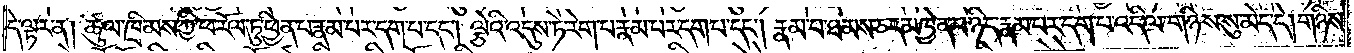དེ་ལྟར་ན། ཚུལ་ཁྲིམས་ཀྱི་ཕ་རོལ་ཏུ་ཕྱིན་པ་རྣམ་པར་དག་པ་དང༌། ལྕེའི་འདུས་ཏེ་རེག་པ་རྣམ་པར་དག་པ་དང༌། རྣམ་པ་ཐམས་ཅད་མཁྱེན་པ་ཉིད་རྣམ་པར་དག་པ་འདི་ལ་གཉིས་སུ་མེད་དེ། གཉིས་
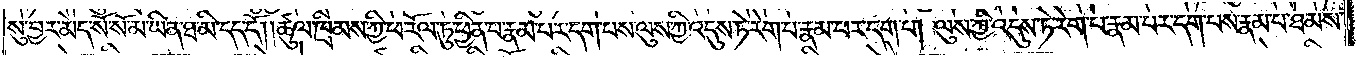སུ་བྱར་མེད་སོ་སོ་མ་ཡིན་ཐ་མི་དད་དོ། །ཚུལ་ཁྲིམས་ཀྱི་ཕ་རོལ་ཏུ་ཕྱིན་པ་རྣམ་པར་དག་པས་ལུས་ཀྱི་འདུས་ཏེ་རེག་པ་རྣམ་པར་དག་པ། ལུས་ཀྱི་འདུས་ཏེ་རེག་པ་རྣམ་པར་དག་པས་རྣམ་པ་ཐམས་
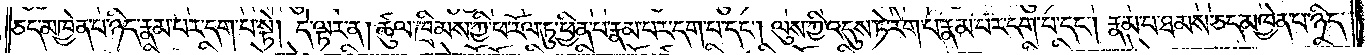ཅད་མཁྱེན་པ་ཉིད་རྣམ་པར་དག་པ་སྟེ། དེ་ལྟར་ན། ཚུལ་ཁྲིམས་ཀྱི་ཕ་རོལ་ཏུ་ཕྱིན་པ་རྣམ་པར་དག་པ་དང༌། ལུས་ཀྱི་འདུས་ཏེ་རེག་པ་རྣམ་པར་དག་པ་དང༌། རྣམ་པ་ཐམས་ཅད་མཁྱེན་པ་ཉིད་
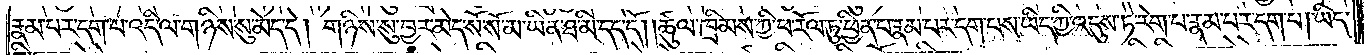རྣམ་པར་དག་པ་འདི་ལ་གཉིས་སུ་མེད་དེ། གཉིས་སུ་བྱར་མེད་སོ་སོ་མ་ཡིན་ཐ་མི་དད་དོ། །ཚུལ་ཁྲིམས་ཀྱི་ཕ་རོལ་ཏུ་ཕྱིན་པ་རྣམ་པར་དག་པས་ཡིད་ཀྱི་འདུས་ཏེ་རེག་པ་རྣམ་པར་དག་པ། ཡིད་
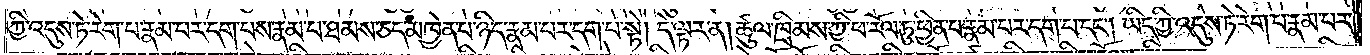ཀྱི་འདུས་ཏེ་རེག་པ་རྣམ་པར་དག་པས་རྣམ་པ་ཐམས་ཅད་མཁྱེན་པ་ཉིད་རྣམ་པར་དག་པ་སྟེ། དེ་ལྟར་ན། ཚུལ་ཁྲིམས་ཀྱི་ཕ་རོལ་ཏུ་ཕྱིན་པ་རྣམ་པར་དག་པ་དང༌། ཡིད་ཀྱི་འདུས་ཏེ་རེག་པ་རྣམ་པར་
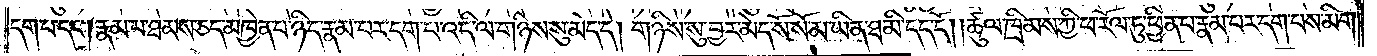དག་པ་དང༌། རྣམ་པ་ཐམས་ཅད་མཁྱེན་པ་ཉིད་རྣམ་པར་དག་པ་འདི་ལ་གཉིས་སུ་མེད་དེ། གཉིས་སུ་བྱར་མེད་སོ་སོ་མ་ཡིན་ཐ་མི་དད་དོ། །ཚུལ་ཁྲིམས་ཀྱི་ཕ་རོལ་ཏུ་ཕྱིན་པ་རྣམ་པར་དག་པས་མིག་
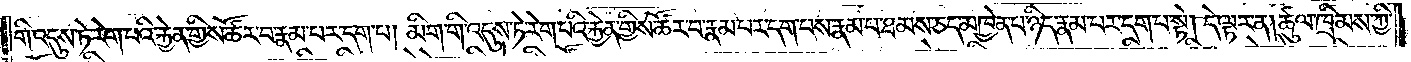གི་འདུས་ཏེ་རེག་པའི་རྐྱེན་གྱིས་ཚོར་བ་རྣམ་པར་དག་པ། མིག་གི་འདུས་ཏེ་རེག་པའི་རྐྱེན་གྱིས་ཚོར་བ་རྣམ་པར་དག་པས་རྣམ་པ་ཐམས་ཅད་མཁྱེན་པ་ཉིད་རྣམ་པར་དག་པ་སྟེ། དེ་ལྟར་ན། ཚུལ་ཁྲིམས་ཀྱི་
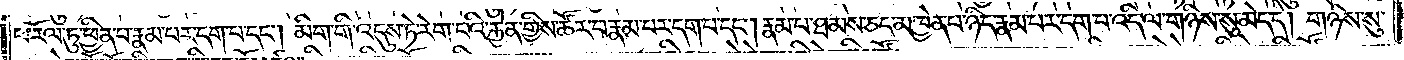ཕ་རོལ་ཏུ་ཕྱིན་པ་རྣམ་པར་དག་པ་དང༌། མིག་གི་འདུས་ཏེ་རེག་པའི་རྐྱེན་གྱིས་ཚོར་བ་རྣམ་པར་དག་པ་དང༌། རྣམ་པ་ཐམས་ཅད་མཁྱེན་པ་ཉིད་རྣམ་པར་དག་པ་འདི་ལ་གཉིས་སུ་མེད་དེ། གཉིས་སུ་
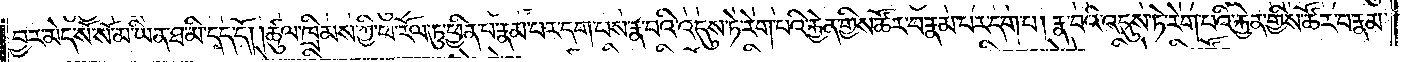བྱར་མེད་སོ་སོ་མ་ཡིན་ཐ་མི་དད་དོ། །ཚུལ་ཁྲིམས་ཀྱི་ཕ་རོལ་ཏུ་ཕྱིན་པ་རྣམ་པར་དག་པས་རྣ་བའི་འདུས་ཏེ་རེག་པའི་རྐྱེན་གྱིས་ཚོར་བ་རྣམ་པར་དག་པ། རྣ་བའི་འདུས་ཏེ་རེག་པའི་རྐྱེན་གྱིས་ཚོར་བ་རྣམ་
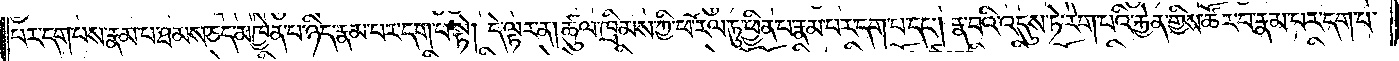པར་དག་པས་རྣམ་པ་ཐམས་ཅད་མཁྱེན་པ་ཉིད་རྣམ་པར་དག་པ་སྟེ། དེ་ལྟར་ན། ཚུལ་ཁྲིམས་ཀྱི་ཕ་རོལ་ཏུ་ཕྱིན་པ་རྣམ་པར་དག་པ་དང༌། རྣ་བའི་འདུས་ཏེ་རེག་པའི་རྐྱེན་གྱིས་ཚོར་བ་རྣམ་པར་དག་པ་
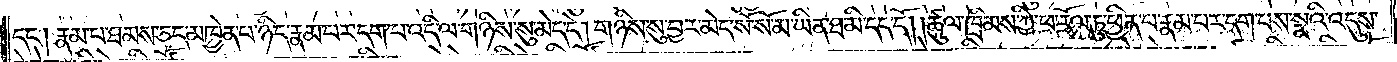དང༌། རྣམ་པ་ཐམས་ཅད་མཁྱེན་པ་ཉིད་རྣམ་པར་དག་པ་འདི་ལ་གཉིས་སུ་མེད་དེ། གཉིས་སུ་བྱར་མེད་སོ་སོ་མ་ཡིན་ཐ་མི་དད་དོ། །ཚུལ་ཁྲིམས་ཀྱི་ཕ་རོལ་ཏུ་ཕྱིན་པ་རྣམ་པར་དག་པས་སྣའི་འདུས་
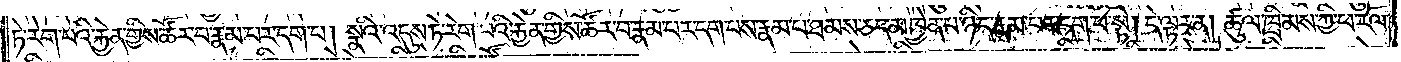ཏེ་རེག་པའི་རྐྱེན་གྱིས་ཚོར་བ་རྣམ་པར་དག་པ། སྣའི་འདུས་ཏེ་རེག་པའི་རྐྱེན་གྱིས་ཚོར་བ་རྣམ་པར་དག་པས་རྣམ་པ་ཐམས་ཅད་མཁྱེན་པ་ཉིད་རྣམ་པར་དག་པ་སྟེ། དེ་ལྟར་ན། ཚུལ་ཁྲིམས་ཀྱི་ཕ་རོལ་
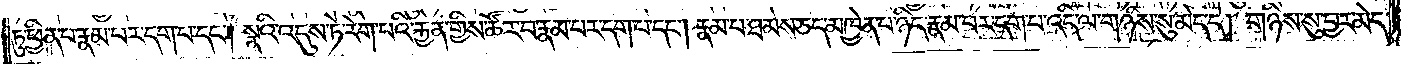ཏུ་ཕྱིན་པ་རྣམ་པར་དག་པ་དང༌། སྣའི་འདུས་ཏེ་རེག་པའི་རྐྱེན་གྱིས་ཚོར་བ་རྣམ་པར་དག་པ་དང༌། རྣམ་པ་ཐམས་ཅད་མཁྱེན་པ་ཉིད་རྣམ་པར་དག་པ་འདི་ལ་གཉིས་སུ་མེད་དེ། གཉིས་སུ་བྱར་མེད་
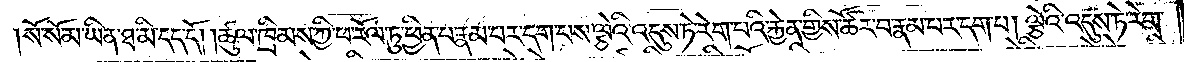སོ་སོ་མ་ཡིན་ཐ་མི་དད་དོ། །ཚུལ་ཁྲིམས་ཀྱི་ཕ་རོལ་ཏུ་ཕྱིན་པ་རྣམ་པར་དག་པས་ལྕེའི་འདུས་ཏེ་རེག་པའི་རྐྱེན་གྱིས་ཚོར་བ་རྣམ་པར་དག་པ། ལྕེའི་འདུས་ཏེ་རེག་
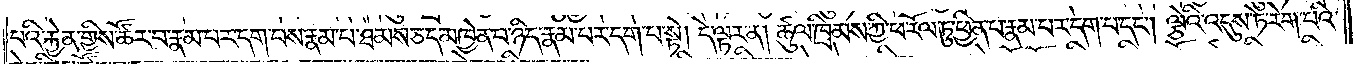པའི་རྐྱེན་གྱིས་ཚོར་བ་རྣམ་པར་དག་པས་རྣམ་པ་ཐམས་ཅད་མཁྱེན་པ་ཉིད་རྣམ་པར་དག་པ་སྟེ། དེ་ལྟར་ན། ཚུལ་ཁྲིམས་ཀྱི་ཕ་རོལ་ཏུ་ཕྱིན་པ་རྣམ་པར་དག་པ་དང༌། ལྕེའི་འདུས་ཏེ་རེག་པའི་
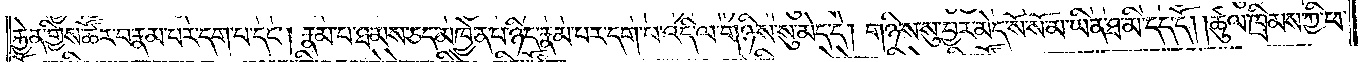རྐྱེན་གྱིས་ཚོར་བ་རྣམ་པར་དག་པ་དང༌། རྣམ་པ་ཐམས་ཅད་མཁྱེན་པ་ཉིད་རྣམ་པར་དག་པ་འདི་ལ་གཉིས་སུ་མེད་དེ། གཉིས་སུ་བྱར་མེད་སོ་སོ་མ་ཡིན་ཐ་མི་དད་དོ། །ཚུལ་ཁྲིམས་ཀྱི་ཕ་
